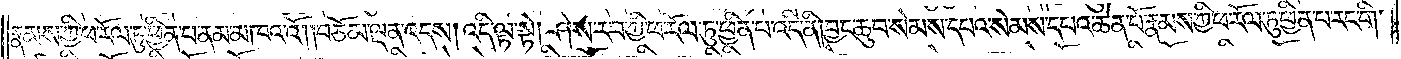རྣམས་ཀྱི་ཕ་རོལ་ཏུ་ཕྱིན་པ་ནམ་མཁའ་འོ། །བཅོམ་ལྡན་འདས། འདི་ལྟ་སྟེ། ཤེས་རབ་ཀྱི་ཕ་རོལ་ཏུ་ཕྱིན་པ་འདི་ནི། བྱང་ཆུབ་སེམས་དཔའ་སེམས་དཔའ་ཆེན་པོ་རྣམས་ཀྱི་ཕ་རོལ་ཏུ་ཕྱིན་པ་རང་གི་
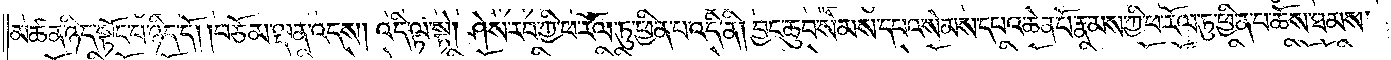མཚན་ཉིད་སྟོང་པ་ཉིད་དོ། །བཅོམ་ལྡན་འདས། འདི་ལྟ་སྟེ། ཤེས་རབ་ཀྱི་ཕ་རོལ་ཏུ་ཕྱིན་པ་འདི་ནི། བྱང་ཆུབ་སེམས་དཔའ་སེམས་དཔའ་ཆེན་པོ་རྣམས་ཀྱི་ཕ་རོལ་ཏུ་ཕྱིན་པ་ཆོས་ཐམས་
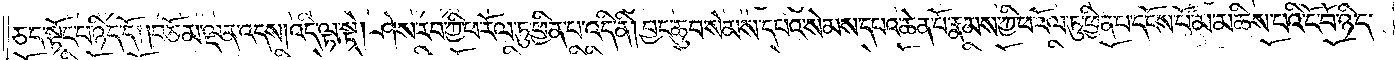ཅད་སྟོང་པ་ཉིད་དོ། །བཅོམ་ལྡན་འདས། འདི་ལྟ་སྟེ། ཤེས་རབ་ཀྱི་ཕ་རོལ་ཏུ་ཕྱིན་པ་འདི་ནི། བྱང་ཆུབ་སེམས་དཔའ་སེམས་དཔའ་ཆེན་པོ་རྣམས་ཀྱི་ཕ་རོལ་ཏུ་ཕྱིན་པ་དངོས་པོ་མ་མཆིས་པའི་ངོ་བོ་ཉིད་
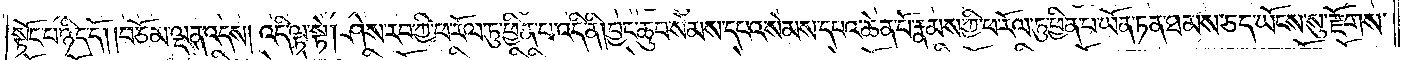སྟོང་པ་ཉིད་དོ། །བཅོམ་ལྡན་འདས། འདི་ལྟ་སྟེ། ཤེས་རབ་ཀྱི་ཕ་རོལ་ཏུ་ཕྱིན་པ་འདི་ནི། བྱང་ཆུབ་སེམས་དཔའ་སེམས་དཔའ་ཆེན་པོ་རྣམས་ཀྱི་ཕ་རོལ་ཏུ་ཕྱིན་པ་ཡོན་ཏན་ཐམས་ཅད་ཡོངས་སུ་རྫོགས་
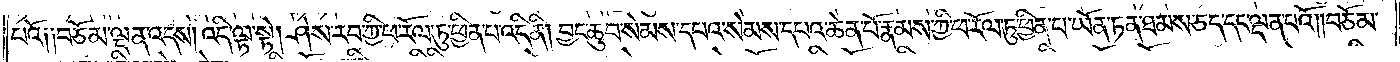པའོ༑ ༑བཅོམ་ལྡན་འདས། འདི་ལྟ་སྟེ། ཤེས་རབ་ཀྱི་ཕ་རོལ་ཏུ་ཕྱིན་པ་འདི་ནི། བྱང་ཆུབ་སེམས་དཔའ་སེམས་དཔའ་ཆེན་པོ་རྣམས་ཀྱི་ཕ་རོལ་ཏུ་ཕྱིན་པ་ཡོན་ཏན་ཐམས་ཅད་དང་ལྡན་པའོ། །བཅོམ་
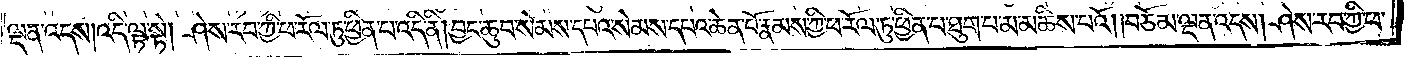ལྡན་འདས༑ འདི་ལྟ་སྟེ། ཤེས་རབ་ཀྱི་ཕ་རོལ་ཏུ་ཕྱིན་པ་འདི་ནི། བྱང་ཆུབ་སེམས་དཔའ་སེམས་དཔའ་ཆེན་པོ་རྣམས་ཀྱི་ཕ་རོལ་ཏུ་ཕྱིན་པ་ཐུག་པ་མ་མཆིས་པའོ། །བཅོམ་ལྡན་འདས། ཤེས་རབ་ཀྱི་ཕ་
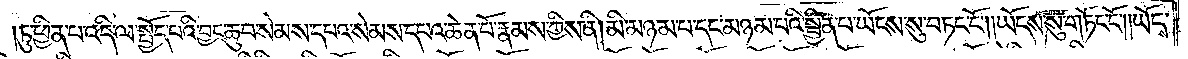ཏུ་ཕྱིན་པ་འདི་ལ་སྤྱོད་པའི་བྱང་ཆུབ་སེམས་དཔའ་སེམས་དཔའ་ཆེན་པོ་རྣམས་ཀྱིས་ནི། མི་མཉམ་པ་དང་མཉམ་པའི་སྦྱིན་པ་ཡོངས་སུ་བཏང་ངོ༌། །ཡོངས་སུ་གཏོང་ངོ༌། །ཡོངས་
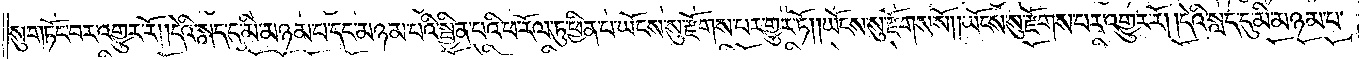སུ་གཏོང་བར་འགྱུར་རོ། །དེའི་སླད་དུ་མི་མཉམ་པ་དང་མཉམ་པའི་སྦྱིན་པའི་ཕ་རོལ་ཏུ་ཕྱིན་པ་ཡོངས་སུ་རྫོགས་པར་གྱུར་ཏོ། །ཡོངས་སུ་རྫོགས་སོ། །ཡོངས་སུ་རྫོགས་པར་འགྱུར་རོ། །དེའི་སླད་དུ་མི་མཉམ་པ་
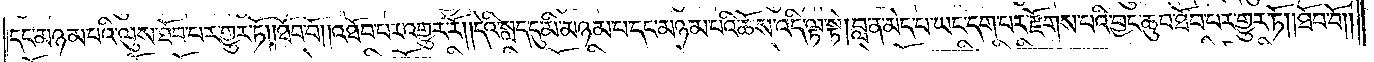དང་མཉམ་པའི་ལུས་ཐོབ་པར་གྱུར་ཏོ། །ཐོབ་བོ། །འཐོབ་པར་འགྱུར་རོ། །དེའི་སླད་དུ་མི་མཉམ་པ་དང་མཉམ་པའི་ཆོས་འདི་ལྟ་སྟེ། བླ་ན་མེད་པ་ཡང་དག་པར་རྫོགས་པའི་བྱང་ཆུབ་ཐོབ་པར་གྱུར་ཏོ། །ཐོབ་བོ༎
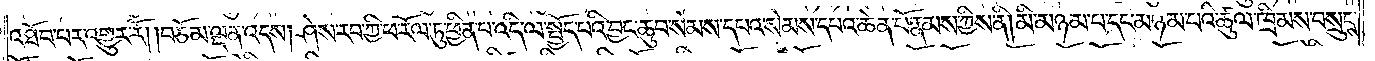འཐོབ་པར་འགྱུར་རོ། །བཅོམ་ལྡན་འདས། ཤེས་རབ་ཀྱི་ཕ་རོལ་ཏུ་ཕྱིན་པ་འདི་ལ་སྤྱོད་པའི་བྱང་ཆུབ་སེམས་དཔའ་སེམས་དཔའ་ཆེན་པོ་རྣམས་ཀྱིས་ནི། མི་མཉམ་པ་དང་མཉམ་པའི་ཚུལ་ཁྲིམས་བསྲུངས་
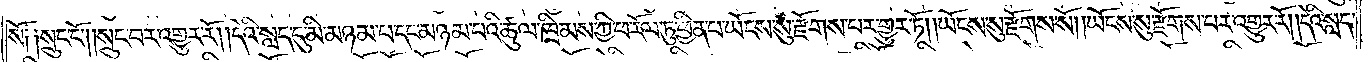སོ༑ ༑སྲུང་ངོ༌། །སྲུང་བར་འགྱུར་རོ། །དེའི་སླད་དུ་མི་མཉམ་པ་དང་མཉམ་པའི་ཚུལ་ཁྲིམས་ཀྱི་ཕ་རོལ་ཏུ་ཕྱིན་པ་ཡོངས་སུ་རྫོགས་པར་གྱུར་ཏོ། །ཡོངས་སུ་རྫོགས་སོ། །ཡོངས་སུ་རྫོགས་པར་འགྱུར་རོ། །དེའི་སླད་
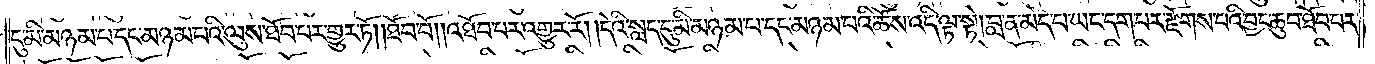དུ་མི་མཉམ་པ་དང་མཉམ་པའི་ལུས་ཐོབ་པར་གྱུར་ཏོ། །ཐོབ་བོ། །འཐོབ་པར་འགྱུར་རོ། །དེའི་སླད་དུ་མི་མཉམ་པ་དང་མཉམ་པའི་ཆོས་འདི་ལྟ་སྟེ། བླ་ན་མེད་པ་ཡང་དག་པར་རྫོགས་པའི་བྱང་ཆུབ་ཐོབ་པར་
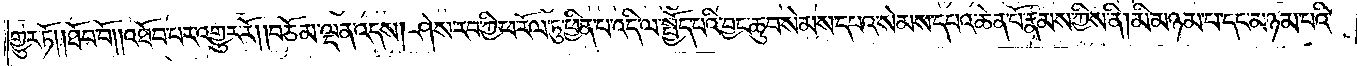གྱུར་ཏོ། །ཐོབ་བོ། །འཐོབ་པར་འགྱུར་རོ། །བཅོམ་ལྡན་འདས། ཤེས་རབ་ཀྱི་ཕ་རོལ་ཏུ་ཕྱིན་པ་འདི་ལ་སྤྱོད་པའི་བྱང་ཆུབ་སེམས་དཔའ་སེམས་དཔའ་ཆེན་པོ་རྣམས་ཀྱིས་ནི། མི་མཉམ་པ་དང་མཉམ་པའི་
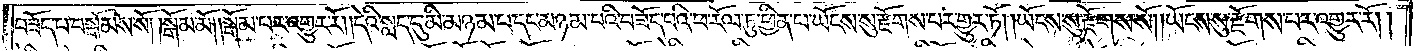བཟོད་པ་བསྒོམས་སོ། །སྒོམ་མོ། །སྒོམ་པར་འགྱུར་རོ། །དེའི་སླད་དུ་མི་མཉམ་པ་དང་མཉམ་པའི་བཟོད་པའི་ཕ་རོལ་ཏུ་ཕྱིན་པ་ཡོངས་སུ་རྫོགས་པར་གྱུར་ཏོ། །ཡོངས་སུ་རྫོགས་སོ། །ཡོངས་སུ་རྫོགས་པར་འགྱུར་རོ། །
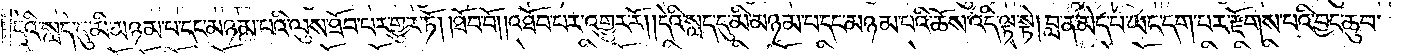དེའི་སླད་དུ་མི་མཉམ་པ་དང་མཉམ་པའི་ལུས་ཐོབ་པར་གྱུར་ཏོ། །ཐོབ་བོ། །འཐོབ་པར་འགྱུར་རོ། །དེའི་སླད་དུ་མི་མཉམ་པ་དང་མཉམ་པའི་ཆོས་འདི་ལྟ་སྟེ། བླ་ན་མེད་པ་ཡང་དག་པར་རྫོགས་པའི་བྱང་ཆུབ་
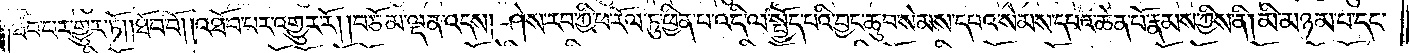ཐོབ་པར་གྱུར་ཏོ། །ཐོབ་བོ། །འཐོབ་པར་འགྱུར་རོ། །བཅོམ་ལྡན་འདས། ཤེས་རབ་ཀྱི་ཕ་རོལ་ཏུ་ཕྱིན་པ་འདི་ལ་སྤྱོད་པའི་བྱང་ཆུབ་སེམས་དཔའ་སེམས་དཔའ་ཆེན་པོ་རྣམས་ཀྱིས་ནི། མི་མཉམ་པ་དང་
